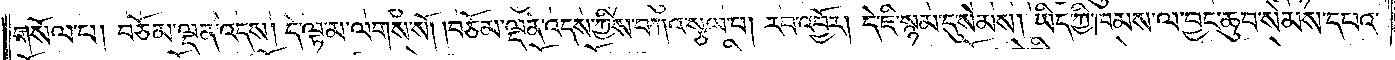གསོལ་པ། བཅོམ་ལྡན་འདས། དེ་ལྟ་མ་ལགས་སོ། །བཅོམ་ལྡན་འདས་ཀྱིས་བཀའ་སྩལ་པ། རབ་འབྱོར། དེ་ཇི་སྙམ་དུ་སེམས། ཡིད་ཀྱི་ཁམས་ལ་བྱང་ཆུབ་སེམས་དཔའ་
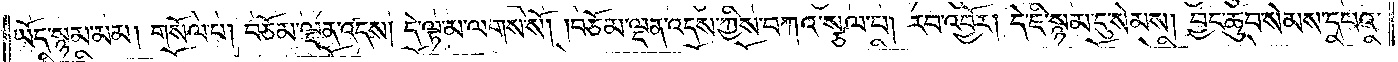ཡོད་སྙམ་མམ། གསོལ་པ། བཅོམ་ལྡན་འདས། དེ་ལྟ་མ་ལགས་སོ། །བཅོམ་ལྡན་འདས་ཀྱིས་བཀའ་སྩལ་པ། རབ་འབྱོར། དེ་ཇི་སྙམ་དུ་སེམས། བྱང་ཆུབ་སེམས་དཔའ་
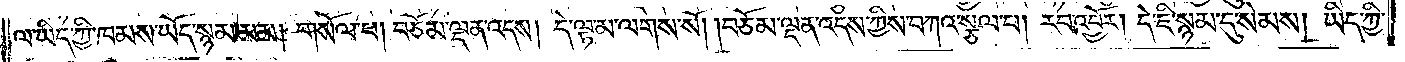ལ་ཡིད་ཀྱི་ཁམས་ཡོད་སྙམ་མམ། གསོལ་པ། བཅོམ་ལྡན་འདས། དེ་ལྟ་མ་ལགས་སོ། །བཅོམ་ལྡན་འདས་ཀྱིས་བཀའ་སྩལ་པ། རབ་འབྱོར། དེ་ཇི་སྙམ་དུ་སེམས། ཡིད་ཀྱི་
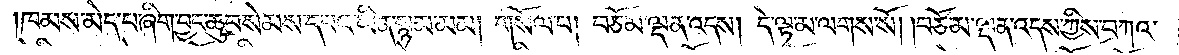ཁམས་མེད་པ་ཞིག་བྱང་ཆུབ་སེམས་དཔའ་ཡིན་སྙམ་མམ། གསོལ་པ། བཅོམ་ལྡན་འདས། དེ་ལྟ་མ་ལགས་སོ། །བཅོམ་ལྡན་འདས་ཀྱིས་བཀའ་
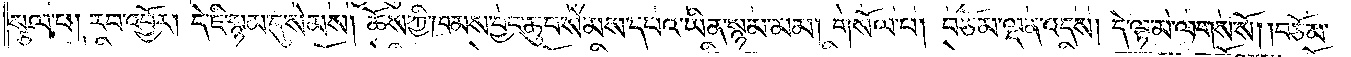སྩལ་པ། རབ་འབྱོར། དེ་ཇི་སྙམ་དུ་སེམས། ཆོས་ཀྱི་ཁམས་བྱང་ཆུབ་སེམས་དཔའ་ཡིན་སྙམ་མམ། གསོལ་པ། བཅོམ་ལྡན་འདས། དེ་ལྟ་མ་ལགས་སོ། །བཅོམ་
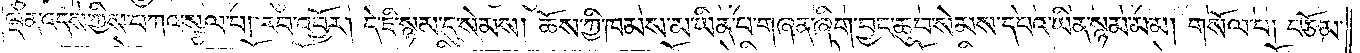ལྡན་འདས་ཀྱིས་བཀའ་སྩལ་པ། རབ་འབྱོར། དེ་ཇི་སྙམ་དུ་སེམས། ཆོས་ཀྱི་ཁམས་མ་ཡིན་པ་གཞན་ཞིག་བྱང་ཆུབ་སེམས་དཔའ་ཡིན་སྙམ་མམ། གསོལ་པ། བཅོམ་
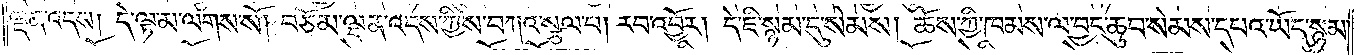ལྡན་འདས། དེ་ལྟ་མ་ལགས་སོ། བཅོམ་ལྡན་འདས་ཀྱིས་བཀའ་སྩལ་པ། རབ་འབྱོར། དེ་ཇི་སྙམ་དུ་སེམས། ཆོས་ཀྱི་ཁམས་ལ་བྱང་ཆུབ་སེམས་དཔའ་ཡོད་སྙམ་
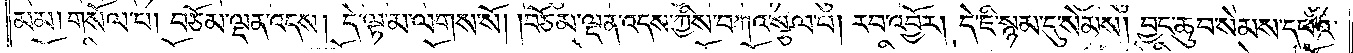མམ། གསོལ་པ། བཅོམ་ལྡན་འདས། དེ་ལྟ་མ་ལགས་སོ། །བཅོམ་ལྡན་འདས་ཀྱིས་བཀའ་སྩལ་པ། རབ་འབྱོར། དེ་ཇི་སྙམ་དུ་སེམས། བྱང་ཆུབ་སེམས་དཔའ་
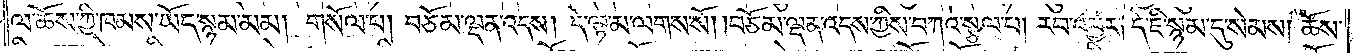ལ་ཆོས་ཀྱི་ཁམས་ཡོད་སྙམ་མམ། གསོལ་པ། བཅོམ་ལྡན་འདས། དེ་ལྟ་མ་ལགས་སོ། །བཅོམ་ལྡན་འདས་ཀྱིས་བཀའ་སྩལ་པ། རབ་འབྱོར། དེ་ཇི་སྙམ་དུ་སེམས། ཆོས་
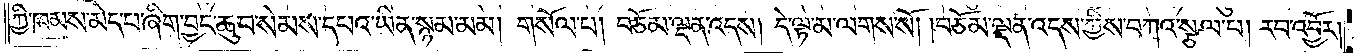ཀྱི་ཁམས་མེད་པ་ཞིག་བྱང་ཆུབ་སེམས་དཔའ་ཡིན་སྙམ་མམ། གསོལ་པ། བཅོམ་ལྡན་འདས། དེ་ལྟ་མ་ལགས་སོ། །བཅོམ་ལྡན་འདས་ཀྱིས་བཀའ་སྩལ་པ། རབ་འབྱོར།
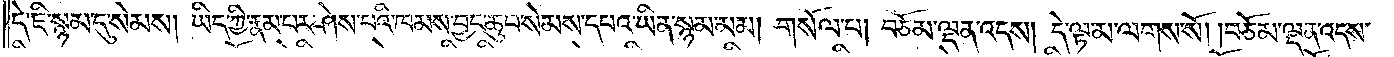དེ་ཇི་སྙམ་དུ་སེམས། ཡིད་ཀྱི་རྣམ་པར་ཤེས་པའི་ཁམས་བྱང་ཆུབ་སེམས་དཔའ་ཡིན་སྙམ་མམ། གསོལ་པ། བཅོམ་ལྡན་འདས། དེ་ལྟ་མ་ལགས་སོ། །བཅོམ་ལྡན་འདས་
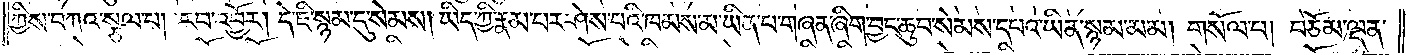ཀྱིས་བཀའ་སྩལ་པ། རབ་འབྱོར། དེ་ཇི་སྙམ་དུ་སེམས། ཡིད་ཀྱི་རྣམ་པར་ཤེས་པའི་ཁམས་མ་ཡིན་པ་གཞན་ཞིག་བྱང་ཆུབ་སེམས་དཔའ་ཡིན་སྙམ་མམ། གསོལ་པ། བཅོམ་ལྡན་
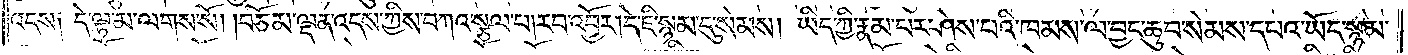འདས༑ དེ་ལྟ་མ་ལགས་སོ། །བཅོམ་ལྡན་འདས་ཀྱིས་བཀའ་སྩལ་པ། རབ་འབྱོར། དེ་ཇི་སྙམ་དུ་སེམས། ཡིད་ཀྱི་རྣམ་པར་ཤེས་པའི་ཁམས་ལ་བྱང་ཆུབ་སེམས་དཔའ་ཡོད་སྙམ་
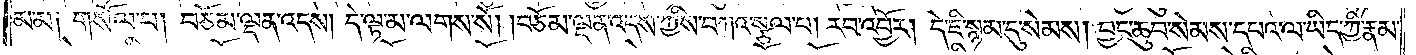མམ༑ གསོལ་པ། བཅོམ་ལྡན་འདས། དེ་ལྟ་མ་ལགས་སོ། །བཅོམ་ལྡན་འདས་ཀྱིས་བཀའ་སྩལ་པ། རབ་འབྱོར། དེ་ཇི་སྙམ་དུ་སེམས། བྱང་ཆུབ་སེམས་དཔའ་ལ་ཡིད་ཀྱི་རྣམ་
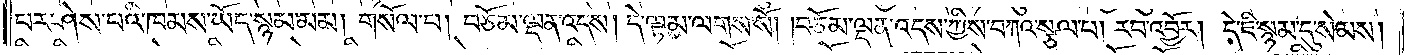པར་ཤེས་པའི་ཁམས་ཡོད་སྙམ་མམ། གསོལ་པ། བཅོམ་ལྡན་འདས། དེ་ལྟ་མ་ལགས་སོ། །བཅོམ་ལྡན་འདས་ཀྱིས་བཀའ་སྩལ་པ། རབ་འབྱོར། དེ་ཇི་སྙམ་དུ་སེམས།
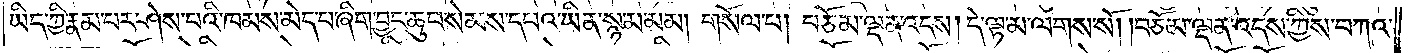ཡིད་ཀྱི་རྣམ་པར་ཤེས་པའི་ཁམས་མེད་པ་ཞིག་བྱང་ཆུབ་སེམས་དཔའ་ཡིན་སྙམ་མམ། གསོལ་པ། བཅོམ་ལྡན་འདས། དེ་ལྟ་མ་ལགས་སོ། །བཅོམ་ལྡན་འདས་ཀྱིས་བཀའ་
